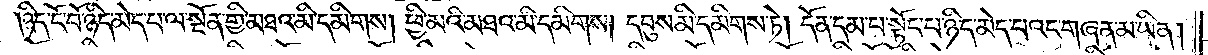ཉིད་ངོ་བོ་ཉིད་མེད་པ་ལ་སྔོན་གྱི་མཐའ་མི་དམིགས། ཕྱི་མའི་མཐའ་མི་དམིགས། དབུས་མི་དམིགས་ཏེ། དོན་དམ་པ་སྟོང་པ་ཉིད་མེད་པའང་གཞན་མ་ཡིན།
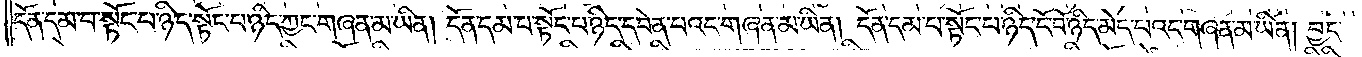དོན་དམ་པ་སྟོང་པ་ཉིད་སྟོང་པ་ཉིད་ཀྱང་གཞན་མ་ཡིན། དོན་དམ་པ་སྟོང་པ་ཉིད་དབེན་པའང་གཞན་མ་ཡིན། དོན་དམ་པ་སྟོང་པ་ཉིད་ངོ་བོ་ཉིད་མེད་པའང་གཞན་མ་ཡིན། བྱང་
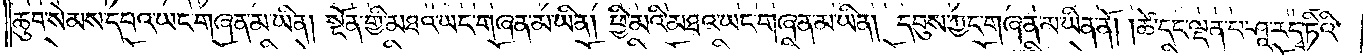ཆུབ་སེམས་དཔའ་ཡང་གཞན་མ་ཡིན། སྔོན་གྱི་མཐའ་ཡང་གཞན་མ་ཡིན། ཕྱི་མའི་མཐའ་ཡང་གཞན་མ་ཡིན། དབུས་ཀྱང་གཞན་མ་ཡིན་ནོ། །ཚེ་དང་ལྡན་པ་ཤཱ་རདྭ་ཏིའི་
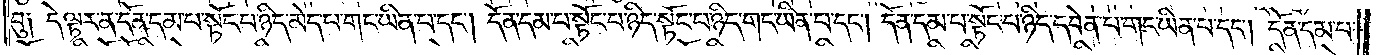བུ༑ དེ་ལྟར་ན་དོན་དམ་པ་སྟོང་པ་ཉིད་མེད་པ་གང་ཡིན་པ་དང༌། དོན་དམ་པ་སྟོང་པ་ཉིད་སྟོང་པ་ཉིད་གང་ཡིན་པ་དང༌། དོན་དམ་པ་སྟོང་པ་ཉིད་དབེན་པ་གང་ཡིན་པ་དང༌། དོན་དམ་པ་
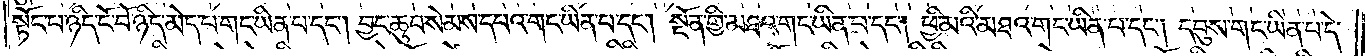སྟོང་པ་ཉིད་ངོ་བོ་ཉིད་མེད་པ་གང་ཡིན་པ་དང༌། བྱང་ཆུབ་སེམས་དཔའ་གང་ཡིན་པ་དང༌། སྔོན་གྱི་མཐའ་གང་ཡིན་པ་དང༌། ཕྱི་མའི་མཐའ་གང་ཡིན་པ་དང༌། དབུས་གང་ཡིན་པ་དེ་
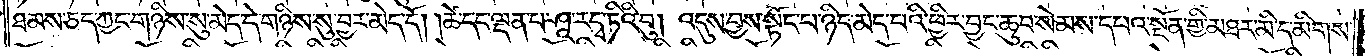ཐམས་ཅད་ཀྱང་གཉིས་སུ་མེད་དེ་གཉིས་སུ་བྱར་མེད་དོ། །ཚེ་དང་ལྡན་པ་ཤཱ་རདྭ་ཏིའི་བུ། འདུས་བྱས་སྟོང་པ་ཉིད་མེད་པའི་ཕྱིར་བྱང་ཆུབ་སེམས་དཔའ་སྔོན་གྱི་མཐར་མི་དམིགས་
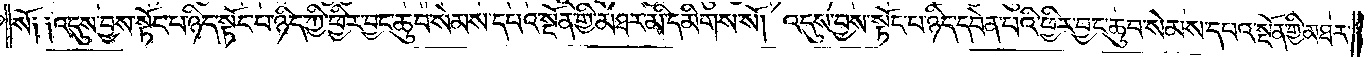སོ། །འདུས་བྱས་སྟོང་པ་ཉིད་སྟོང་པ་ཉིད་ཀྱི་ཕྱིར་བྱང་ཆུབ་སེམས་དཔའ་སྔོན་གྱི་མཐར་མི་དམིགས་སོ། །འདུས་བྱས་སྟོང་པ་ཉིད་དབེན་པའི་ཕྱིར་བྱང་ཆུབ་སེམས་དཔའ་སྔོན་གྱི་མཐར་
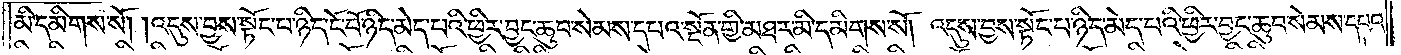མི་དམིགས་སོ། །འདུས་བྱས་སྟོང་པ་ཉིད་ངོ་བོ་ཉིད་མེད་པའི་ཕྱིར་བྱང་ཆུབ་སེམས་དཔའ་སྔོན་གྱི་མཐར་མི་དམིགས་སོ། །འདུས་བྱས་སྟོང་པ་ཉིད་མེད་པའི་ཕྱིར་བྱང་ཆུབ་སེམས་དཔའ་
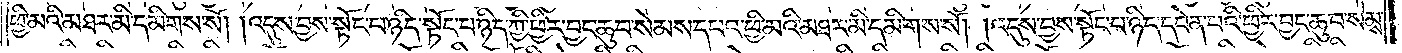ཕྱི་མའི་མཐར་མི་དམིགས་སོ། །འདུས་བྱས་སྟོང་པ་ཉིད་སྟོང་པ་ཉིད་ཀྱི་ཕྱིར་བྱང་ཆུབ་སེམས་དཔའ་ཕྱི་མའི་མཐར་མི་དམིགས་སོ། །འདུས་བྱས་སྟོང་པ་ཉིད་དབེན་པའི་ཕྱིར་བྱང་ཆུབ་སེམས་
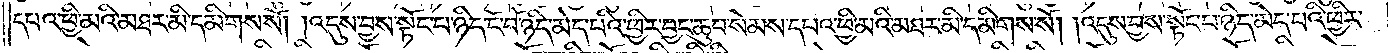དཔའ་ཕྱི་མའི་མཐར་མི་དམིགས་སོ། །འདུས་བྱས་སྟོང་པ་ཉིད་ངོ་བོ་ཉིད་མེད་པའི་ཕྱིར་བྱང་ཆུབ་སེམས་དཔའ་ཕྱི་མའི་མཐར་མི་དམིགས་སོ། །འདུས་བྱས་སྟོང་པ་ཉིད་མེད་པའི་ཕྱིར་
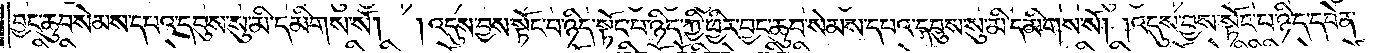བྱང་ཆུབ་སེམས་དཔའ་དབུས་སུ་མི་དམིགས་སོ། །འདུས་བྱས་སྟོང་པ་ཉིད་སྟོང་པ་ཉིད་ཀྱི་ཕྱིར་བྱང་ཆུབ་སེམས་དཔའ་དབུས་སུ་མི་དམིགས་སོ། །འདུས་བྱས་སྟོང་པ་ཉིད་དབེན་
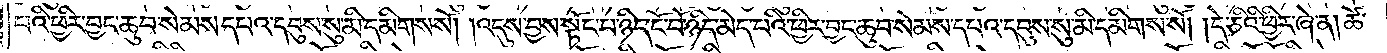པའི་ཕྱིར་བྱང་ཆུབ་སེམས་དཔའ་དབུས་སུ་མི་དམིགས་སོ། །འདུས་བྱས་སྟོང་པ་ཉིད་ངོ་བོ་ཉིད་མེད་པའི་ཕྱིར་བྱང་ཆུབ་སེམས་དཔའ་དབུས་སུ་མི་དམིགས་སོ། །དེ་ཅིའི་ཕྱིར་ཞེ་ན། ཚེ་
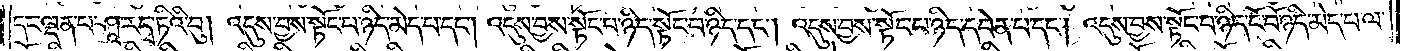དང་ལྡན་པ་ཤཱ་རདྭ་ཏིའི་བུ། འདུས་བྱས་སྟོང་པ་ཉིད་མེད་པ་དང༌། འདུས་བྱས་སྟོང་པ་ཉིད་སྟོང་པ་ཉིད་དང༌། འདུས་བྱས་སྟོང་པ་ཉིད་དབེན་པ་དང༌། འདུས་བྱས་སྟོང་པ་ཉིད་ངོ་བོ་ཉིད་མེད་པ་ལ་
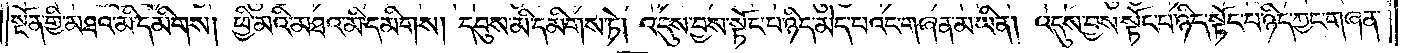སྔོན་གྱི་མཐའ་མི་དམིགས། ཕྱི་མའི་མཐའ་མི་དམིགས། དབུས་མི་དམིགས་ཏེ། འདུས་བྱས་སྟོང་པ་ཉིད་མེད་པའང་གཞན་མ་ཡིན། འདུས་བྱས་སྟོང་པ་ཉིད་སྟོང་པ་ཉིད་ཀྱང་གཞན་
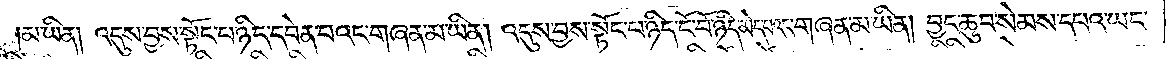མ་ཡིན། འདུས་བྱས་སྟོང་པ་ཉིད་དབེན་པའང་གཞན་མ་ཡིན། འདུས་བྱས་སྟོང་པ་ཉིད་ངོ་བོ་ཉིད་མེད་པའང་གཞན་མ་ཡིན། བྱང་ཆུབ་སེམས་དཔའ་ཡང་
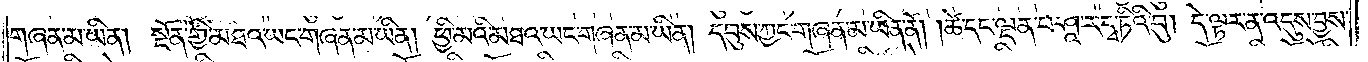གཞན་མ་ཡིན། སྔོན་གྱི་མཐའ་ཡང་གཞན་མ་ཡིན། ཕྱི་མའི་མཐའ་ཡང་གཞན་མ་ཡིན། དབུས་ཀྱང་གཞན་མ་ཡིན་ནོ། །ཚེ་དང་ལྡན་པ་ཤཱ་རདྭ་ཏིའི་བུ། དེ་ལྟར་ན་འདུས་བྱས་
